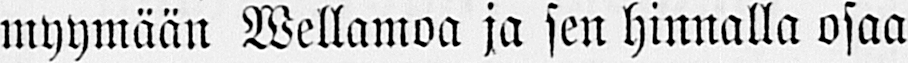myymään Wellamoa ja sen hinnalla osaa
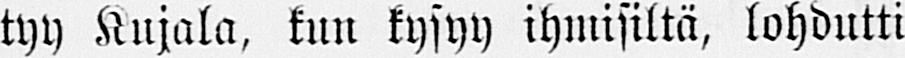tyy Kujala, kun kysyy ihmisiltä, lohdutti
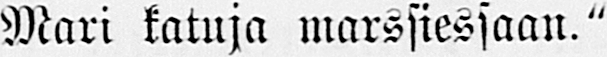Mari katuja marssiessaan."
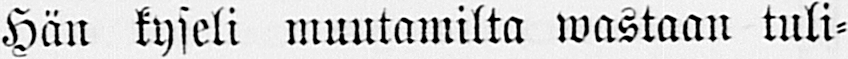Hän kyseli muutamilta wastaan tuli-
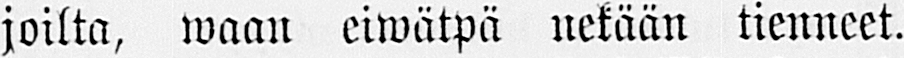joilta, waan eiwätpä nekään tienneet.
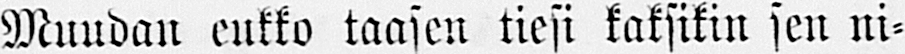Muudan eukko taasen tiesi kaksikin sen ni-
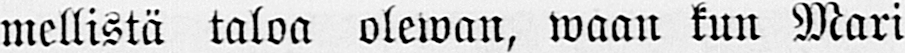mellistä taloa olewan, waan kun Mari
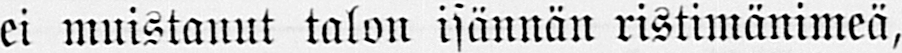ei muistanut talon isännän ristimänimeä,
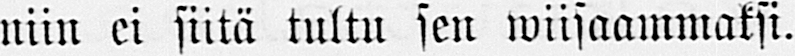niin ei siitä tultu sen wiisaammaksi.
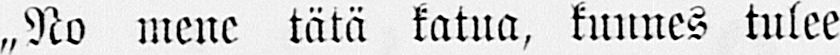„No mene tätä katua, kunnes tulee
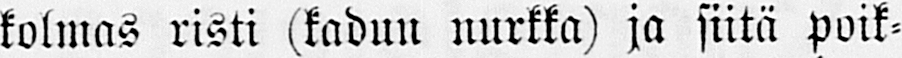kolmas risti (kadun nurkka) ja siitä poik-
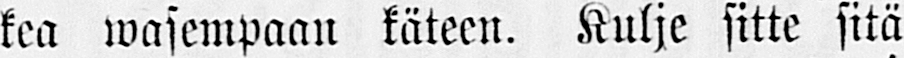kea wasempaan käteen. Kulje sitte sitä
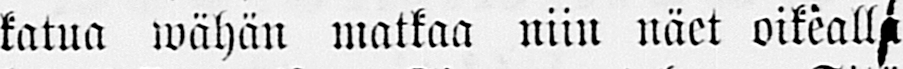katua wähän matkaa niin näet oikealla
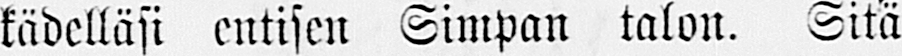kädelläsi entisen Simpan talon. Sitä
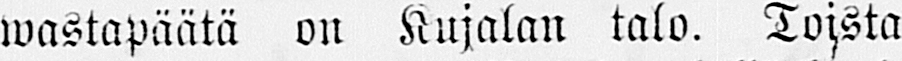wastapäätä on Kujalan talo. Toista
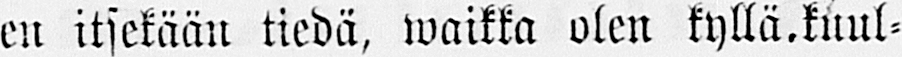en itsekään tiedä, waikka olen kyllä kuul-
